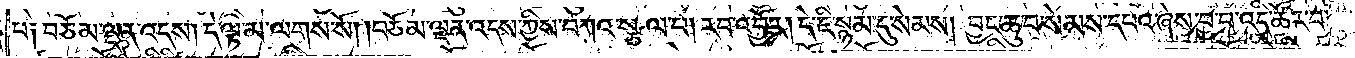པ༑ བཅོམ་ལྡན་འདས། དེ་ལྟ་མ་ལགས་སོ། །བཅོམ་ལྡན་འདས་ཀྱིས་བཀའ་སྩལ་པ། རབ་འབྱོར། དེ་ཇི་སྙམ་དུ་སེམས། བྱང་ཆུབ་སེམས་དཔའ་ཞེས་བྱ་བ་འདི་ཚོར་བ་
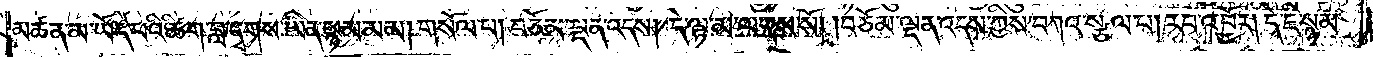མཚན་མ་ཡོད་པའི་ཚིག་བླ་དྭགས་ཡིན་སྙམ་མམ། གསོལ་པ། བཅོམ་ལྡན་འདས། དེ་ལྟ་མ་ལགས་སོ། །བཅོམ་ལྡན་འདས་ཀྱིས་བཀའ་སྩལ་པ། རབ་འབྱོར། དེ་ཇི་སྙམ་
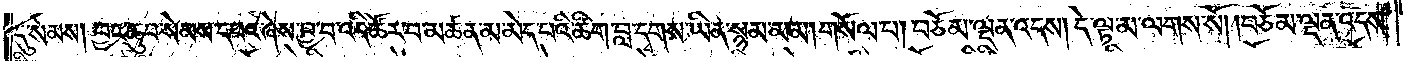དུ་སེམས། བྱང་ཆུབ་སེམས་དཔའ་ཞེས་བྱ་བ་འདི་ཚོར་བ་མཚན་མ་མེད་པའི་ཚིག་བླ་དྭགས་ཡིན་སྙམ་མམ། གསོལ་པ། བཅོམ་ལྡན་འདས། དེ་ལྟ་མ་ལགས་སོ། །བཅོམ་ལྡན་འདས་
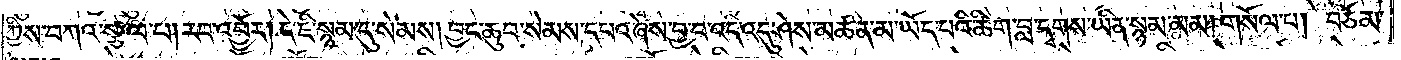ཀྱིས་བཀའ་སྩལ་པ། རབ་འབྱོར། དེ་ཇི་སྙམ་དུ་སེམས། བྱང་ཆུབ་སེམས་དཔའ་ཞེས་བྱ་བ་འདི་འདུ་ཤེས་མཚན་མ་ཡོད་པའི་ཚིག་བླ་དྭགས་ཡིན་སྙམ་མམ། གསོལ་པ། བཅོམ་
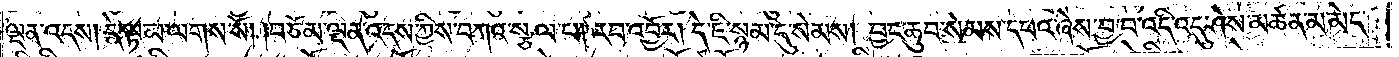ལྡན་འདས། དེ་ལྟ་མ་ལགས་སོ། །བཅོམ་ལྡན་འདས་ཀྱིས་བཀའ་སྩལ་པ། རབ་འབྱོར། དེ་ཇི་སྙམ་དུ་སེམས། བྱང་ཆུབ་སེམས་དཔའ་ཞེས་བྱ་བ་འདི་འདུ་ཤེས་མཚན་མ་མེད་
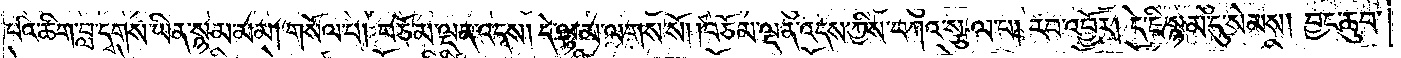པའི་ཚིག་བླ་དྭགས་ཡིན་སྙམ་མམ། གསོལ་པ། བཅོམ་ལྡན་འདས། དེ་ལྟ་མ་ལགས་སོ། །བཅོམ་ལྡན་འདས་ཀྱིས་བཀའ་སྩལ་པ། རབ་འབྱོར། དེ་ཇི་སྙམ་དུ་སེམས། བྱང་ཆུབ་
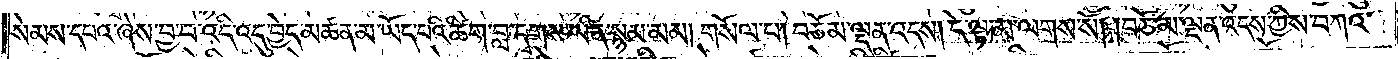སེམས་དཔའ་ཞེས་བྱ་བ་འདི་འདུ་བྱེད་མཚན་མ་ཡོད་པའི་ཚིག་བླ་དྭགས་ཡིན་སྙམ་མམ། གསོལ་པ། བཅོམ་ལྡན་འདས། དེ་ལྟ་མ་ལགས་སོ། །བཅོམ་ལྡན་འདས་ཀྱིས་བཀའ་
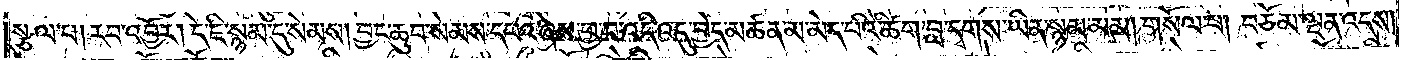སྩལ་པ། རབ་འབྱོར། དེ་ཇི་སྙམ་དུ་སེམས། བྱང་ཆུབ་སེམས་དཔའ་ཞེས་བྱ་བ་འདི་འདུ་བྱེད་མཚན་མ་མེད་པའི་ཚིག་བླ་དྭགས་ཡིན་སྙམ་མམ། གསོལ་པ། བཅོམ་ལྡན་འདས།
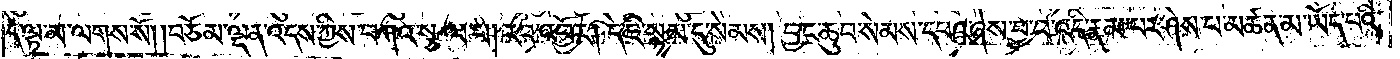དེ་ལྟ་མ་ལགས་སོ། །བཅོམ་ལྡན་འདས་ཀྱིས་བཀའ་སྩལ་པ། རབ་འབྱོར། དེ་ཇི་སྙམ་དུ་སེམས། བྱང་ཆུབ་སེམས་དཔའ་ཞེས་བྱ་བ་འདི་རྣམ་པར་ཤེས་པ་མཚན་མ་ཡོད་པའི་
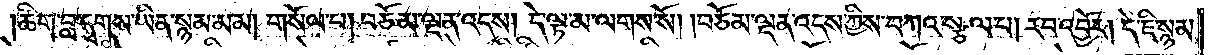ཚིག་བླ་དྭགས་ཡིན་སྙམ་མམ། གསོལ་པ། བཅོམ་ལྡན་འདས། དེ་ལྟ་མ་ལགས་སོ། །བཅོམ་ལྡན་འདས་ཀྱིས་བཀའ་སྩལ་པ། རབ་འབྱོར། དེ་ཇི་སྙམ་
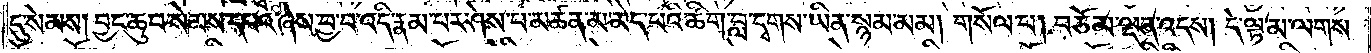དུ་སེམས། བྱང་ཆུབ་སེམས་དཔའ་ཞེས་བྱ་བ་འདི་རྣམ་པར་ཤེས་པ་མཚན་མ་མེད་པའི་ཚིག་བླ་དྭགས་ཡིན་སྙམ་མམ། གསོལ་པ༑ བཅོམ་ལྡན་འདས། དེ་ལྟ་མ་ལགས་
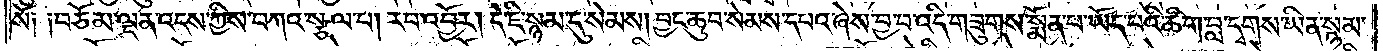སོ༑ ༑བཅོམ་ལྡན་འདས་ཀྱིས་བཀའ་སྩལ་པ། རབ་འབྱོར། དེ་ཇི་སྙམ་དུ་སེམས། བྱང་ཆུབ་སེམས་དཔའ་ཞེས་བྱ་བ་འདི་གཟུགས་སྨོན་པ་ཡོད་པའི་ཚིག་བླ་དྭགས་ཡིན་སྙམ་
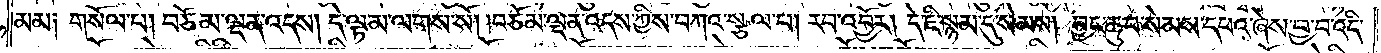མམ༑ གསོལ་པ། བཅོམ་ལྡན་འདས། དེ་ལྟ་མ་ལགས་སོ། །བཅོམ་ལྡན་འདས་ཀྱིས་བཀའ་སྩལ་པ། རབ་འབྱོར། དེ་ཇི་སྙམ་དུ་སེམས། བྱང་ཆུབ་སེམས་དཔའ་ཞེས་བྱ་བ་འདི་
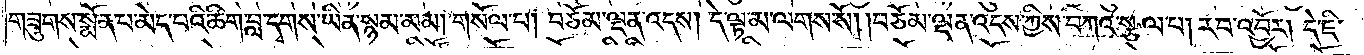གཟུགས་སྨོན་པ་མེད་པའི་ཚིག་བླ་དྭགས་ཡིན་སྙམ་མམ། གསོལ་པ། བཅོམ་ལྡན་འདས། དེ་ལྟ་མ་ལགས་སོ། །བཅོམ་ལྡན་འདས་ཀྱིས་བཀའ་སྩལ་པ། རབ་འབྱོར། དེ་ཇི་
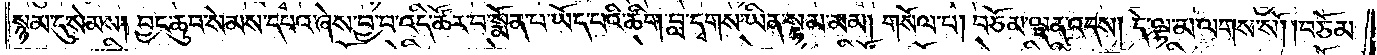སྙམ་དུ་སེམས། བྱང་ཆུབ་སེམས་དཔའ་ཞེས་བྱ་བ་འདི་ཚོར་བ་སྨོན་པ་ཡོད་པའི་ཚིག་བླ་དྭགས་ཡིན་སྙམ་མམ། གསོལ་པ། བཅོམ་ལྡན་འདས། དེ་ལྟ་མ་ལགས་སོ། །བཅོམ་
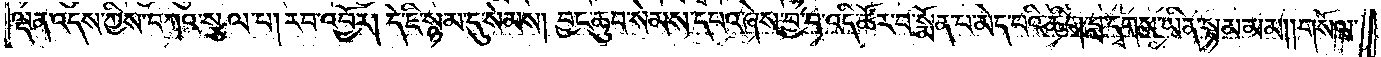ལྡན་འདས་ཀྱིས་བཀའ་སྩལ་པ། རབ་འབྱོར། དེ་ཇི་སྙམ་དུ་སེམས། བྱང་ཆུབ་སེམས་དཔའ་ཞེས་བྱ་བ་འདི་ཚོར་བ་སྨོན་པ་མེད་པའི་ཚིག་བླ་དྭགས་ཡིན་སྙམ་མམ། །གསོལ་
